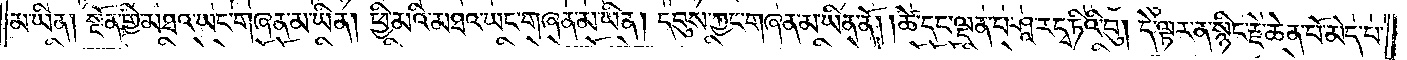མ་ཡིན། སྔོན་གྱི་མཐའ་ཡང་གཞན་མ་ཡིན། ཕྱི་མའི་མཐའ་ཡང་གཞན་མ་ཡིན། དབུས་ཀྱང་གཞན་མ་ཡིན་ནོ། །ཚེ་དང་ལྡན་པ་ཤཱ་རདྭ་ཏིའི་བུ། དེ་ལྟར་ན་སྙིང་རྗེ་ཆེན་པོ་མེད་པ་
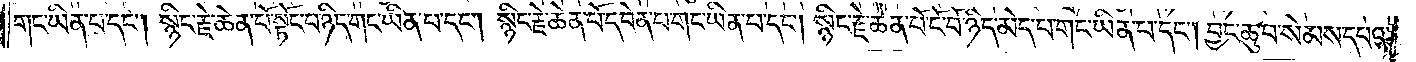གང་ཡིན་པ་དང༌། སྙིང་རྗེ་ཆེན་པོ་སྟོང་པ་ཉིད་གང་ཡིན་པ་དང༌། སྙིང་རྗེ་ཆེན་པོ་དབེན་པ་གང་ཡིན་པ་དང༌། སྙིང་རྗེ་ཆེན་པོ་ངོ་བོ་ཉིད་མེད་པ་གང་ཡིན་པ་དང༌། བྱང་ཆུབ་སེམས་དཔའ་
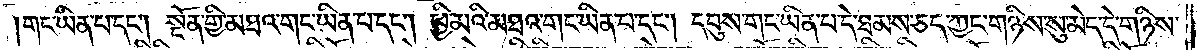གང་ཡིན་པ་དང༌། སྔོན་གྱི་མཐའ་གང་ཡིན་པ་དང༌། ཕྱི་མའི་མཐའ་གང་ཡིན་པ་དང༌། དབུས་གང་ཡིན་པ་དེ་ཐམས་ཅད་ཀྱང་གཉིས་སུ་མེད་དེ་གཉིས་
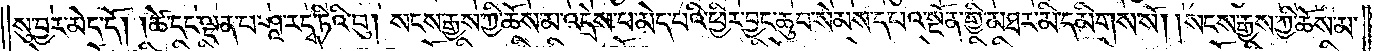སུ་བྱར་མེད་དོ། །ཚེ་དང་ལྡན་པ་ཤཱ་རདྭ་ཏིའི་བུ། སངས་རྒྱས་ཀྱི་ཆོས་མ་འདྲེས་པ་མེད་པའི་ཕྱིར་བྱང་ཆུབ་སེམས་དཔའ་སྔོན་གྱི་མཐར་མི་དམིགས་སོ། །སངས་རྒྱས་ཀྱི་ཆོས་མ་
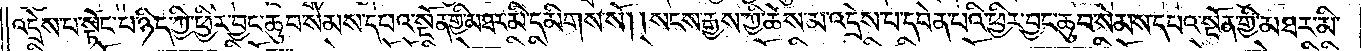འདྲེས་པ་སྟོང་པ་ཉིད་ཀྱི་ཕྱིར་བྱང་ཆུབ་སེམས་དཔའ་སྔོན་གྱི་མཐར་མི་དམིགས་སོ། །སངས་རྒྱས་ཀྱི་ཆོས་མ་འདྲེས་པ་དབེན་པའི་ཕྱིར་བྱང་ཆུབ་སེམས་དཔའ་སྔོན་གྱི་མཐར་མི་
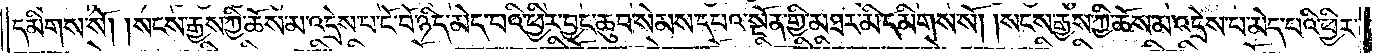དམིགས་སོ། །སངས་རྒྱས་ཀྱི་ཆོས་མ་འདྲེས་པ་ངོ་བོ་ཉིད་མེད་པའི་ཕྱིར་བྱང་ཆུབ་སེམས་དཔའ་སྔོན་གྱི་མཐར་མི་དམིགས་སོ། །སངས་རྒྱས་ཀྱི་ཆོས་མ་འདྲེས་པ་མེད་པའི་ཕྱིར་
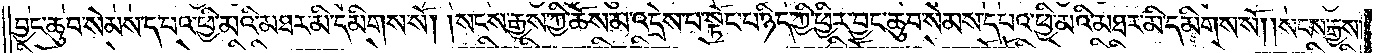བྱང་ཆུབ་སེམས་དཔའ་ཕྱི་མའི་མཐར་མི་དམིགས་སོ། །སངས་རྒྱས་ཀྱི་ཆོས་མ་འདྲེས་པ་སྟོང་པ་ཉིད་ཀྱི་ཕྱིར་བྱང་ཆུབ་སེམས་དཔའ་ཕྱི་མའི་མཐར་མི་དམིགས་སོ། །སངས་རྒྱས་
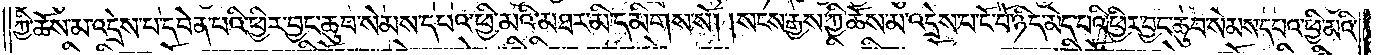ཀྱི་ཆོས་མ་འདྲེས་པ་དབེན་པའི་ཕྱིར་བྱང་ཆུབ་སེམས་དཔའ་ཕྱི་མའི་མཐར་མི་དམིགས་སོ། །སངས་རྒྱས་ཀྱི་ཆོས་མ་འདྲེས་པ་ངོ་བོ་ཉིད་མེད་པའི་ཕྱིར་བྱང་ཆུབ་སེམས་དཔའ་ཕྱི་མའི་
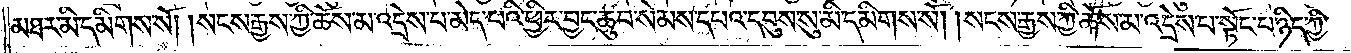མཐར་མི་དམིགས་སོ། །སངས་རྒྱས་ཀྱི་ཆོས་མ་འདྲེས་པ་མེད་པའི་ཕྱིར་བྱང་ཆུབ་སེམས་དཔའ་དབུས་སུ་མི་དམིགས་སོ། །སངས་རྒྱས་ཀྱི་ཆོས་མ་འདྲེས་པ་སྟོང་པ་ཉིད་ཀྱི་
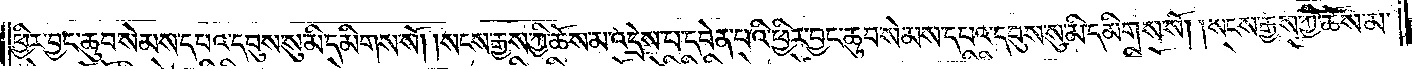ཕྱིར་བྱང་ཆུབ་སེམས་དཔའ་དབུས་སུ་མི་དམིགས་སོ། །སངས་རྒྱས་ཀྱི་ཆོས་མ་འདྲེས་པ་དབེན་པའི་ཕྱིར་བྱང་ཆུབ་སེམས་དཔའ་དབུས་སུ་མི་དམིགས་སོ། །སངས་རྒྱས་ཀྱི་ཆོས་མ་
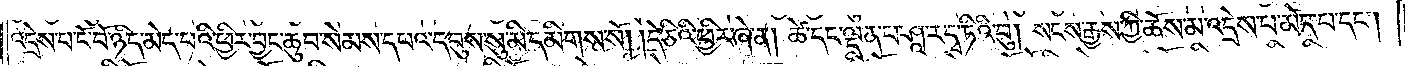འདྲེས་པ་ངོ་བོ་ཉིད་མེད་པའི་ཕྱིར་བྱང་ཆུབ་སེམས་དཔའ་དབུས་སུ་མི་དམིགས་སོ། །དེ་ཅིའི་ཕྱིར་ཞེ་ན། ཚེ་དང་ལྡན་པ་ཤཱ་རདྭ་ཏིའི་བུ། སངས་རྒྱས་ཀྱི་ཆོས་མ་འདྲེས་པ་མེད་པ་དང༌།
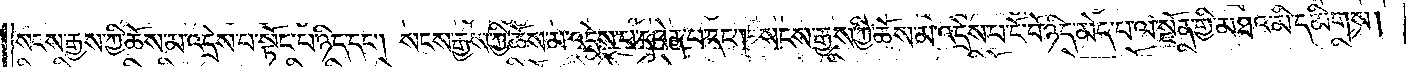སངས་རྒྱས་ཀྱི་ཆོས་མ་འདྲེས་པ་སྟོང་པ་ཉིད་དང༌། སངས་རྒྱས་ཀྱི་ཆོས་མ་འདྲེས་པ་དབེན་པ་དང༌། སངས་རྒྱས་ཀྱི་ཆོས་མ་འདྲེས་པ་ངོ་བོ་ཉིད་མེད་པ་ལ་སྔོན་གྱི་མཐའ་མི་དམིགས།
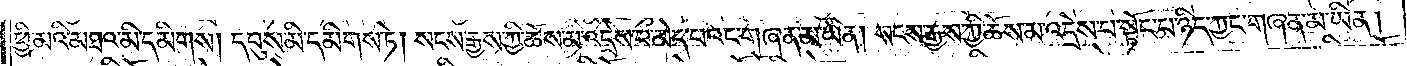ཕྱི་མའི་མཐའ་མི་དམིགས། དབུས་མི་དམིགས་ཏེ། སངས་རྒྱས་ཀྱི་ཆོས་མ་འདྲེས་པ་མེད་པའང་གཞན་མ་ཡིན། སངས་རྒྱས་ཀྱི་ཆོས་མ་འདྲེས་པ་སྟོང་པ་ཉིད་ཀྱང་གཞན་མ་ཡིན།
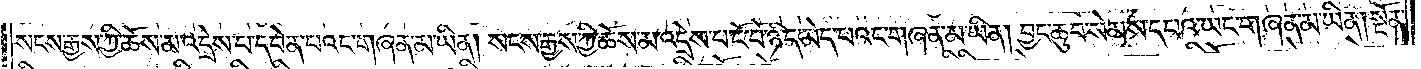སངས་རྒྱས་ཀྱི་ཆོས་མ་འདྲེས་པ་དབེན་པའང་གཞན་མ་ཡིན། སངས་རྒྱས་ཀྱི་ཆོས་མ་འདྲེས་པ་ངོ་བོ་ཉིད་མེད་པའང་གཞན་མ་ཡིན། བྱང་ཆུབ་སེམས་དཔའ་ཡང་གཞན་མ་ཡིན། སྔོན་
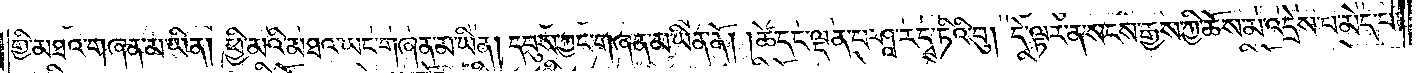གྱི་མཐའ་ཡང་གཞན་མ་ཡིན། ཕྱི་མའི་མཐའ་ཡང་གཞན་མ་ཡིན། དབུས་ཀྱང་གཞན་མ་ཡིན་ནོ། །ཚེ་དང་ལྡན་པ་ཤཱ་རདྭ་ཏིའི་བུ། དེ་ལྟར་ན་སངས་རྒྱས་ཀྱི་ཆོས་མ་འདྲེས་པ་མེད་པ་
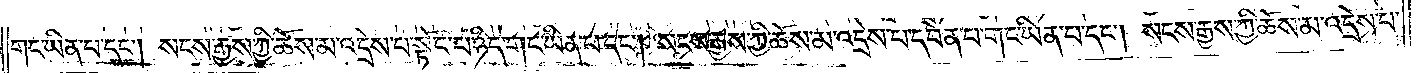གང་ཡིན་པ་དང༌། སངས་རྒྱས་ཀྱི་ཆོས་མ་འདྲེས་པ་སྟོང་པ་ཉིད་གང་ཡིན་པ་དང༌། སངས་རྒྱས་ཀྱི་ཆོས་མ་འདྲེས་པ་དབེན་པ་གང་ཡིན་པ་དང༌། སངས་རྒྱས་ཀྱི་ཆོས་མ་འདྲེས་པ་
